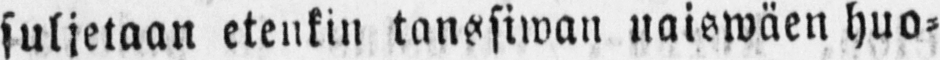suljetaan etenkin tanssiwan naiswäen huo-
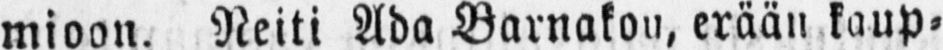mioon. Neiti Ada Barnakou, erään kaup-
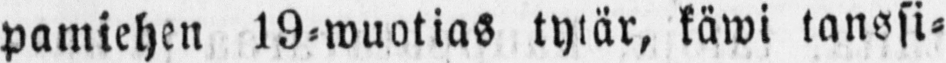pamiehen 19-wuotias tytär, käwi tanssi-
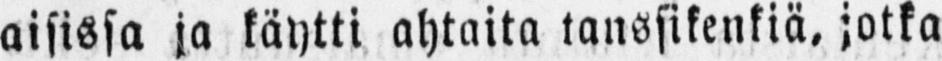aisissa ja käytti ahtaita tanssikenkiä, jotka
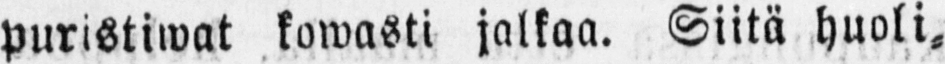puristiwat kowasti jalkaa. Siitä huoli-
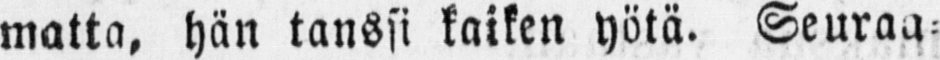matta, hän tanssi kaiken yötä. Seuraa-
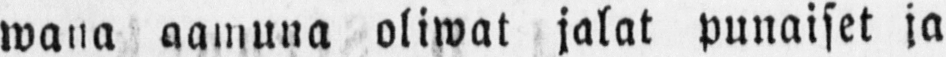wana aamuna oliwat jalat punaiset ja
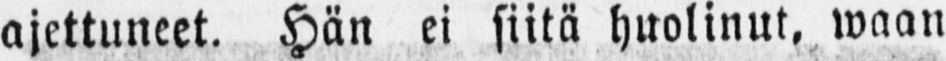ajettuneet. Hän ei siitä huolinut, waan
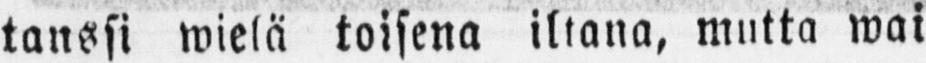tanssi wielä toisena iltana, mutta wai-
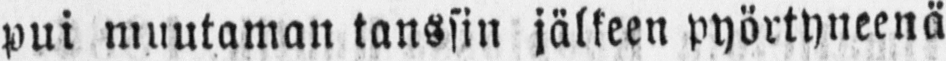pui muutaman tanssin jälkeen pyörtyneenä
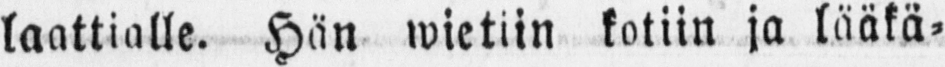laattialle. Hän wietiin kotiin ja lääkä-
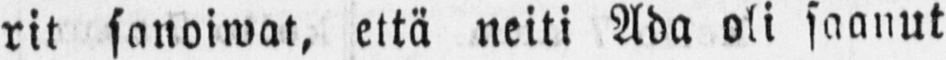rit sanoiwat, että neiti Ada oli saanut
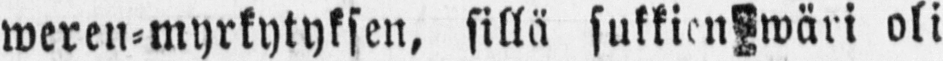weren-myrkytyksen, sillä sukkien wäri oli
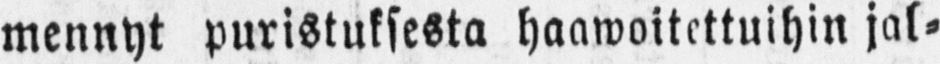mennyt puristuksesta haawoitettuihin jal-
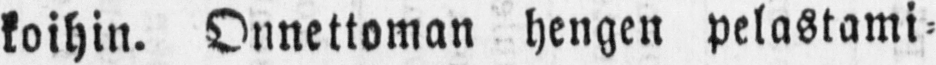koihin. Onnettoman hengen pelastami-
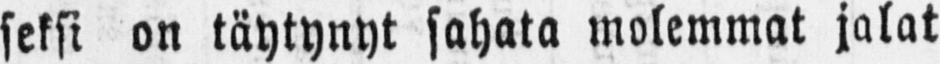seksi on täytynyt sahata molemmat jalat
